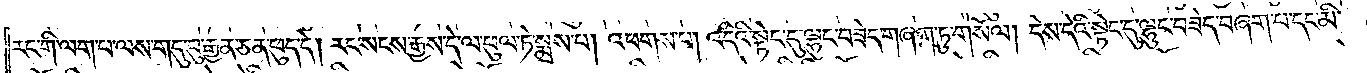རང་གི་ལག་པ་ལས་གདུ་བུ་རྒྱན་ཅན་ཕུད་དེ། རང་སངས་རྒྱས་དེ་ལ་ཕུལ་ཏེ་སྨྲས་པ། འཕགས་པ། འདིའི་སྟེང་དུ་ལྷུང་བཟེད་གཞག་ཏུ་གསོལ། དེས་དེའི་སྟེང་དུ་ལྷུང་བཟེད་བཞག་པ་དང་མི་
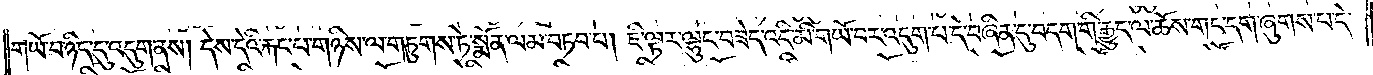གཡོ་བ་ཉིད་དུ་འདུག་ནས། དེས་དེའི་རྐང་པ་གཉིས་ལ་གཏུགས་ཏེ་སྨོན་ལམ་བཏབ་པ། ཇི་ལྟར་ལྷུང་བཟེད་འདི་མི་གཡོ་བར་འདུག་པ་དེ་བཞིན་དུ་བདག་གི་རྒྱུད་ལ་ཆོས་གང་དག་ཞུགས་པ་དེ་
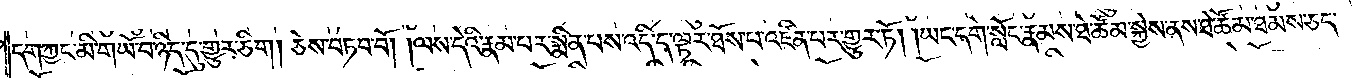དག་ཀྱང་མི་གཡོ་བ་ཉིད་དུ་གྱུར་ཅིག །ཅེས་བཏབ་བོ། །ལས་དེའི་རྣམ་པར་སྨིན་པས་འདི་ད་ལྟར་ཐོས་པ་འཛིན་པར་གྱུར་ཏོ། །ཡང་དགེ་སློང་རྣམས་ཐེ་ཚོམ་སྐྱེས་ནས་ཐེ་ཚོམ་ཐམས་ཅད་
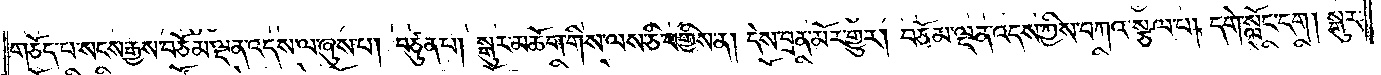གཅོད་པ་སངས་རྒྱས་བཅོམ་ལྡན་འདས་ལ་ཞུས་པ། བཙུན་པ། སྒུར་མཆོག་གིས་ལས་ཅི་བགྱིས་ན། དེས་བྲན་མོར་གྱུར། བཅོམ་ལྡན་འདས་ཀྱིས་བཀའ་སྩལ་པ། དགེ་སློང་དག། སྒུར་
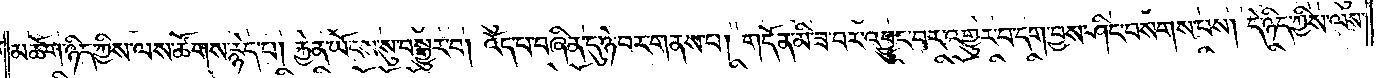མཆོག་ཉིད་ཀྱིས་ལས་ཚོགས་རྙེད་པ། རྐྱེན་ཡོངས་སུ་བསྒྱུར་བ། འོད་པ་བཞིན་དུ་ཉེ་བར་གནས་པ། གདོན་མི་ཟ་བར་འབྱུང་བར་འགྱུར་བ་དག་བྱས་ཤིང་བསགས་པས། དེ་ཉིད་ཀྱིས་ལས་
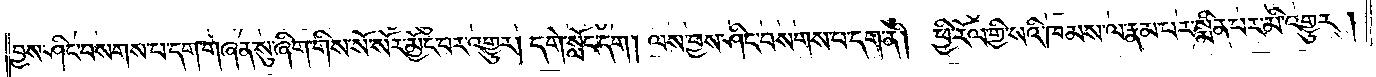བྱས་ཤིང་བསགས་པ་དག་གཞན་སུ་ཞིག་གིས་སོ་སོར་མྱོང་བར་འགྱུར། དགེ་སློང་དག །ལས་བྱས་ཤིང་བསགས་པ་དག་ནི། ཕྱི་རོལ་གྱི་སའི་ཁམས་ལ་རྣམ་པར་སྨིན་པར་མི་འགྱུར།
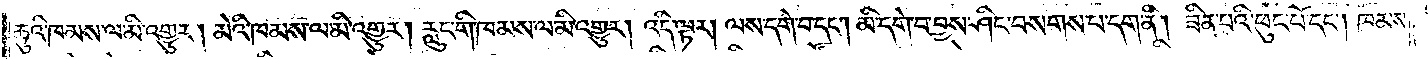ཆུའི་ཁམས་ལ་མི་འགྱུར། མེའི་ཁམས་ལ་མི་འགྱུར། རླུང་གི་ཁམས་ལ་མི་འགྱུར། འདི་ལྟར། ལས་དགེ་བ་དང༌། མི་དགེ་བ་བྱས་ཤིང་བསགས་པ་དག་ནི། ཟིན་པའི་ཕུང་པོ་དང༌། ཁམས་
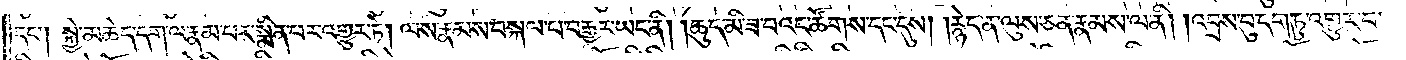དང༌། སྐྱེ་མཆེད་དག་ལ་རྣམ་པར་སྨིན་པར་འགྱུར་ཏེ། ལས་རྣམས་བསྐལ་པ་བརྒྱར་ཡང་ནི། །ཆུད་མི་ཟ་བའང་ཚོགས་དང་དུས། །རྙེད་ན་ལུས་ཅན་རྣམས་ལ་ནི། །འབྲས་བུ་དག་ཏུ་འགྱུར་བ་
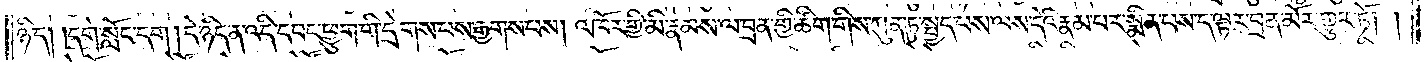ཉིད། །དགེ་སློང་དག །དེ་ཉིད་ན་འདི་དབང་ཕྱུག་གི་དྲེགས་པས་རྒྱགས་པས། འཁོར་གྱི་མི་རྣམས་ལ་བྲན་གྱི་ཚིག་གིས་ཀུན་ཏུ་སྤྱད་པས་ལས་དེའི་རྣམ་པར་སྨིན་པས་ད་ལྟར་བྲན་མོར་གྱུར་ཏོ། །
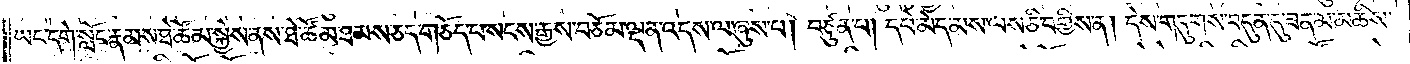ཡང་དགེ་སློང་རྣམས་ཐེ་ཚོམ་སྐྱེས་ནས་ཐེ་ཚོམ་ཐམས་ཅད་གཅོད་པ་སངས་རྒྱས་བཅོམ་ལྡན་འདས་ལ་ཞུས་པ། བཙུན་པ། དཔེ་མེད་མས་ལས་ཅི་བགྱིས་ན། དེས་གདུགས་བདུན་དུ་ཟན་མ་མཆིས་
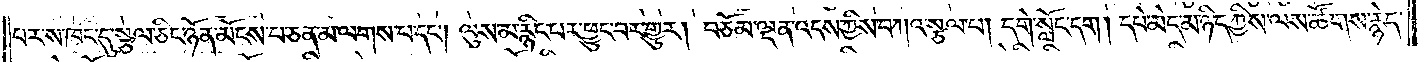པར་ས་ཁང་དུ་སྩལ་ཅིང་ཉོན་མོངས་པ་ཅན་མ་ལགས་པ་དང༌། ལུས་མ་རྙིང་པར་ཕྱུང་བར་གྱུར། བཅོམ་ལྡན་འདས་ཀྱིས་བཀའ་སྩལ་པ། དགེ་སློང་དག །དཔེ་མེད་མ་ཉིད་ཀྱིས་ལས་ཚོགས་རྙེད་
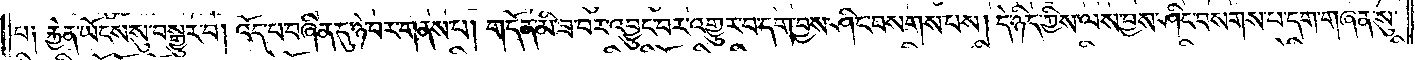པ༑ རྐྱེན་ཡོངས་སུ་བསྒྱུར་བ། འོད་པ་བཞིན་དུ་ཉེ་བར་གནས་པ། གདོན་མི་ཟ་བར་འབྱུང་བར་འགྱུར་བ་དག་བྱས་ཤིང་བསགས་པས། དེ་ཉིད་ཀྱིས་ལས་བྱས་ཤིང་བསགས་པ་དག་གཞན་སུ་
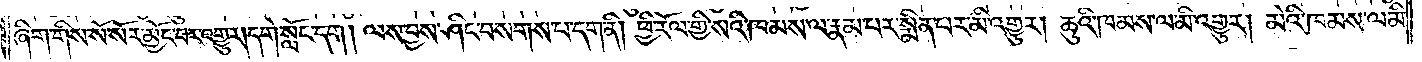ཞིག་གིས་སོ་སོར་མྱོང་བར་འགྱུར། དགེ་སློང་དག །ལས་བྱས་ཤིང་བསགས་པ་དག་ནི། ཕྱི་རོལ་གྱི་སའི་ཁམས་ལ་རྣམ་པར་སྨིན་པར་མི་འགྱུར། ཆུའི་ཁམས་ལ་མི་འགྱུར། མེའི་ཁམས་ལ་མི་
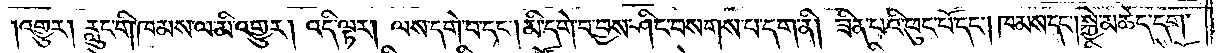།འགྱུར། རླུང་གི་ཁམས་ལ་མི་འགྱུར། འདི་ལྟར། ལས་དགེ་བ་དང༌། མི་དགེ་བ་བྱས་ཤིང་བསགས་པ་དག་ནི། ཟིན་པའི་ཕུང་པོ་དང༌། ཁམས་དང༌། སྐྱེ་མཆེད་དག་
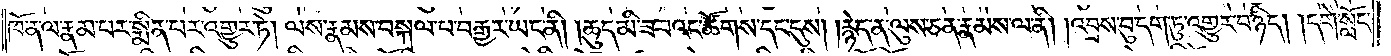ཁོ་ན་ལ་རྣམ་པར་སྨིན་པར་འགྱུར་ཏེ། ལས་རྣམས་བསྐལ་པ་བརྒྱར་ཡང་ནི། །ཆུད་མི་ཟ་བའང་ཚོགས་དང་དུས། །རྙེད་ན་ལུས་ཅན་རྣམས་ལ་ནི། །འབྲས་བུ་དག་ཏུ་འགྱུར་བ་ཉིད། །དགེ་སློང་
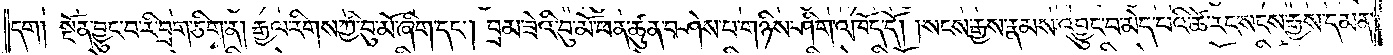དག །སྔོན་བྱུང་བ་རི་བྲག་ཅིག་ན། རྒྱལ་རིགས་ཀྱི་བུ་མོ་ཞིག་དང༌། བྲམ་ཟེའི་བུ་མོ་ཕན་ཚུན་བཤེས་པ་གཉིས་ཤིག་འཁོད་དོ། །སངས་རྒྱས་རྣམས་འབྱུང་བ་མེད་པའི་ཚེ་རང་སངས་རྒྱས་དམན་
